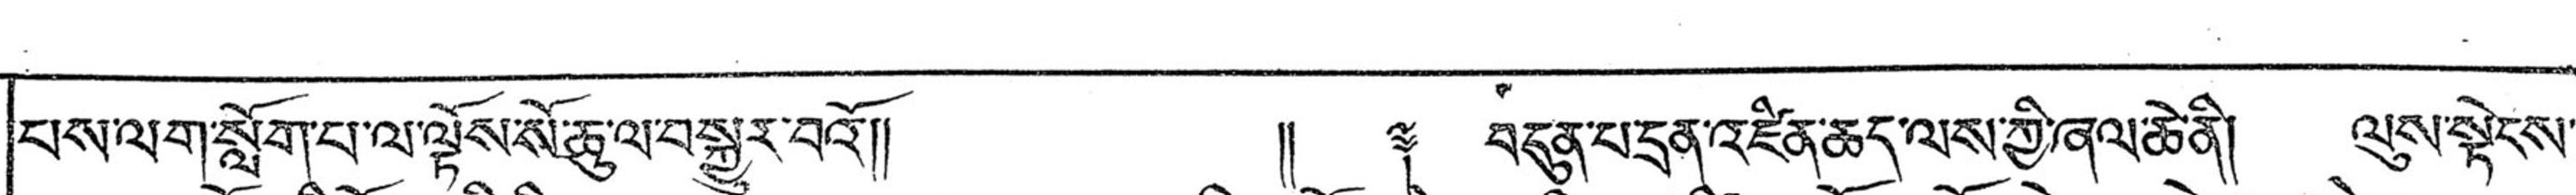པས་ལག་སློག་པ་ལ་ལྟོས་སོ་ཆུ་ལ་བསྐྱུར་བའོ།།  །། ༈ བདུན་པ་དྲན་འཛིན་ཆད་ལས་གྱི་ཞལ་ཆེ་ནི། ལུས་སྟེངས་
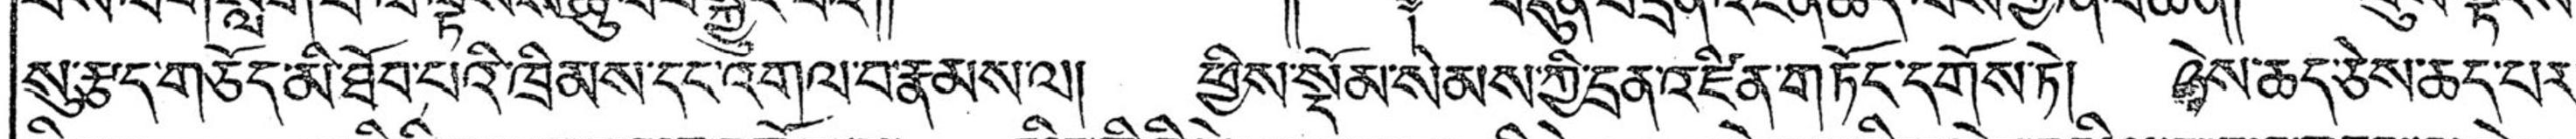སུ་རྩད་གཅོད་མི་ཐོབ་པའི་ཁྲིམས་དང་འགལ་བ་རྣམས་ལ། ཕྱིས་སྡོམ་སེམས་ཀྱི་དྲན་འཛིན་གཏོང་དགོས་ཏེ། ཉེས་ཆད་ཅེས་ཆད་པར་
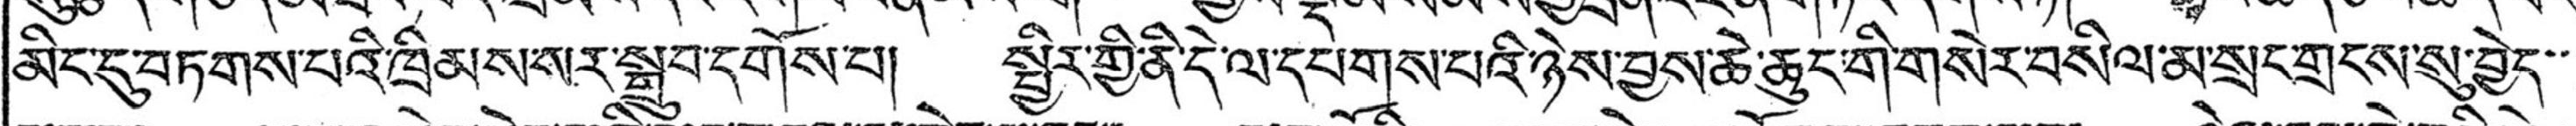མིང་དུ་བཏགས་པའི་ཁྲིམས་སར་སྒྲུབ་དགོས་པ། སྤྱིར་གྱི་ནི་དེ་ལ་དཔགས་པའི་ཉེས་བྱས་ཆེ་ཆུང་གི་གསེར་བསིལ་མ་སྲང་གྲངས་སུ་བྱེད་་་
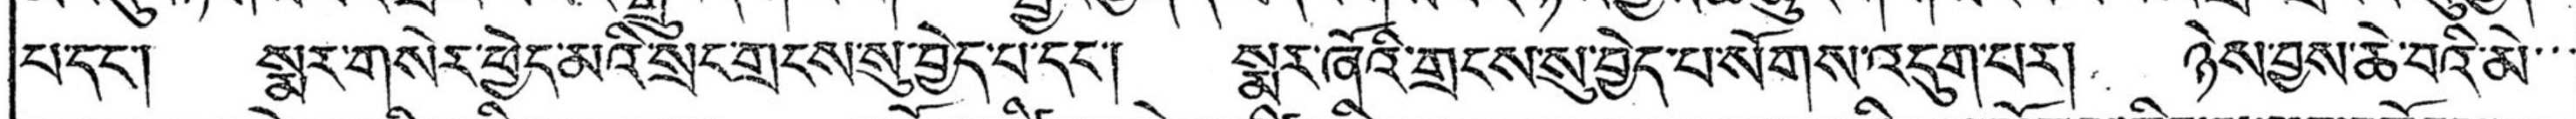པ་དང་། སྨར་གསེར་ཕྱེད་མའི་སྲང་གྲངས་སུ་བྱེད་པ་དང་། སྨར་ཞོའི་གྲངས་སུ་བྱེད་པ་སོགས་འདུག་པར། ཉེས་བྱས་ཆེ་བའི་མེ་་་
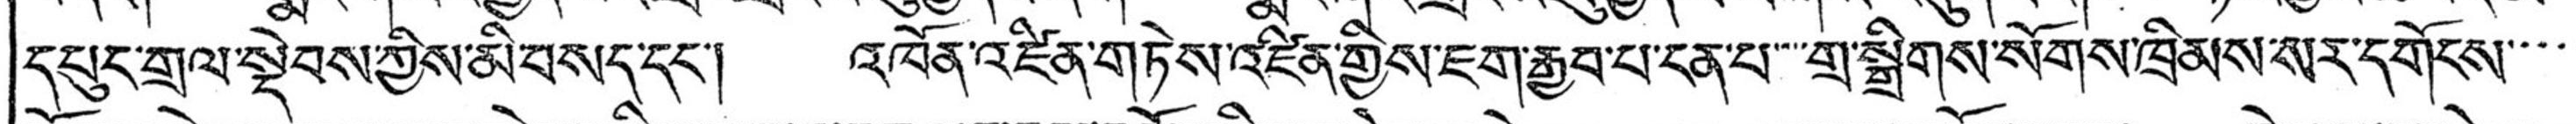དཔུང་གྲལ་སྡེབས་ཀྱིས་མི་བསད་དང་། འཁོན་འཛིན་གཏེས་འཛིན་གྱིས་ཇག་རྒྱབ་པ་ངན་པ་་་་གྲ་སྒྲིགས་སོགས་ཁྲིམས་སར་དགོངས་་་་
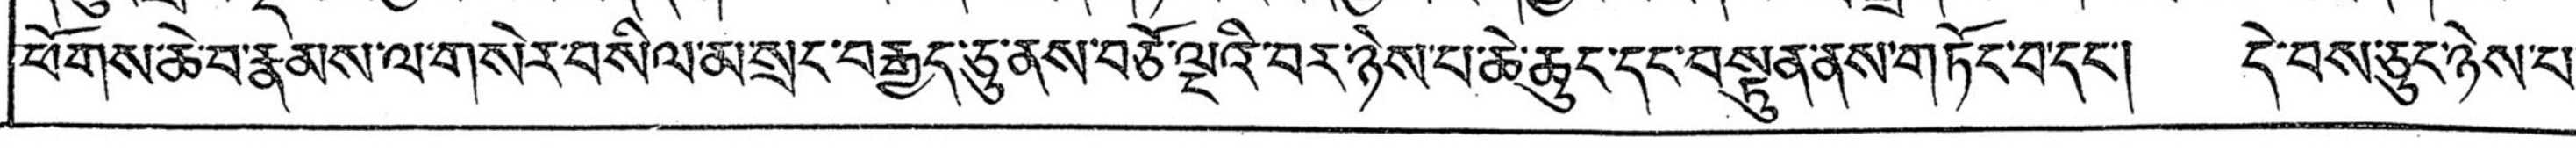ཕོགས་ཆེ་བ་རྣམས་ལ་གསེར་བསིལ་མ་སྲང་བརྒྱད་ཅུ་ནས་བཅོ་ལྔའི་བར་ཉེས་པ་ཆེ་ཆུང་དང་བསྟུན་ནས་གཏོང་བ་དང་། དེ་བས་ཅུང་ཉེས་པ་
